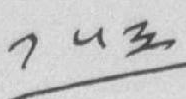༡༥༣
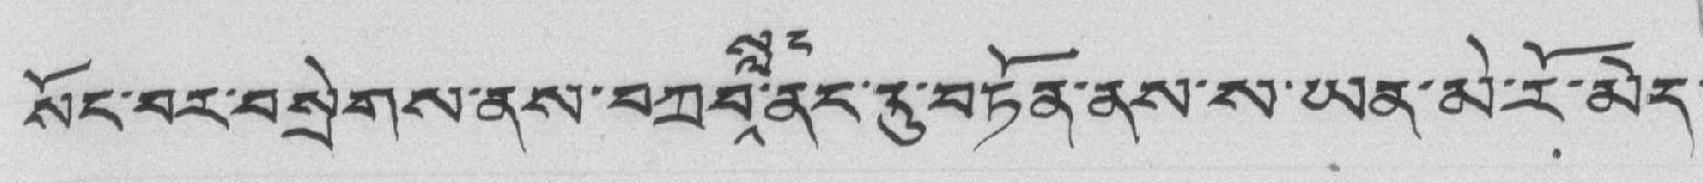སོང་བར་བསྲེགས་ནས་བཀབ་སླང་ནང་དུ་བཏོན་ནས་ས་ཡན་མེ་རོ་མེད་
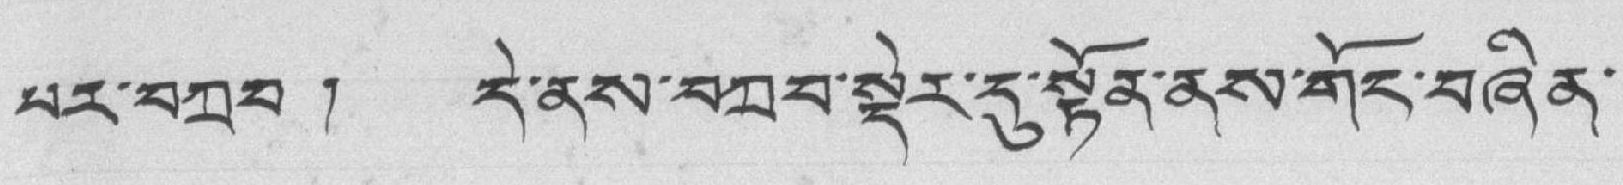པར་བཀྲབ ། དེ་ནས་བཀབ་སྡེར་དུ་སྟོན་ནས་གོང་བཞིན་
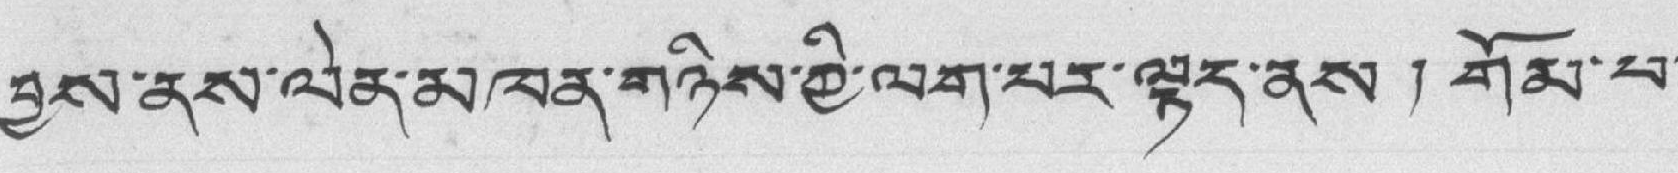བྱས་ནས་ལེན་མཁན་གཉིས་ཀྱི་ལག་པར་ལྟད་ནས ། གོམ་པ་
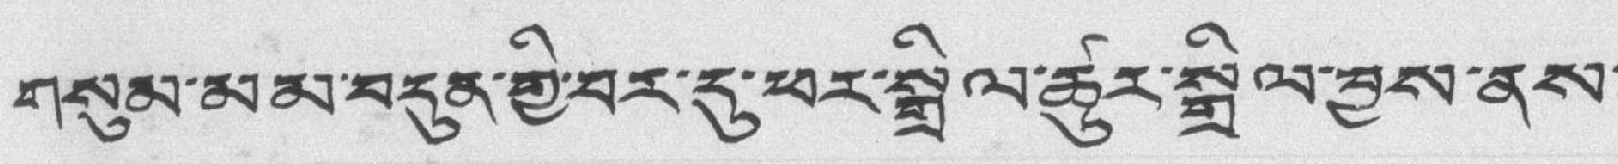གསུམ་མམ་བདུན་གྱི་བར་དུ་ཕར་སྒྲིལ་ཚུར་སྒྲིལ་བྱས་ནས་
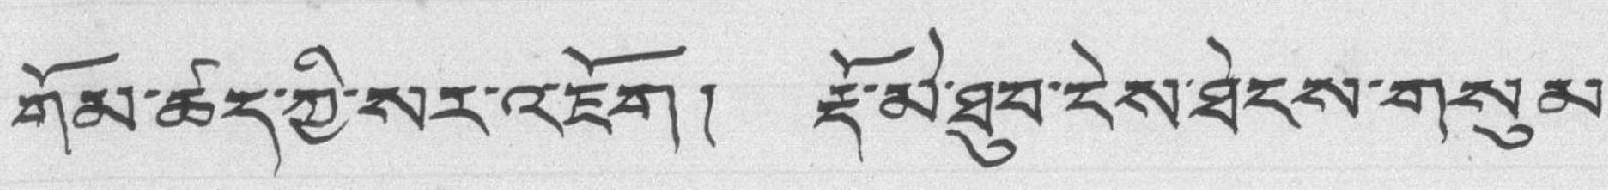གོམ་ཚད་ཀྱི་སར་འཇོག། རྡོ་མེ་ཐུབ་ངེས་ཐེངས་གསུམ་
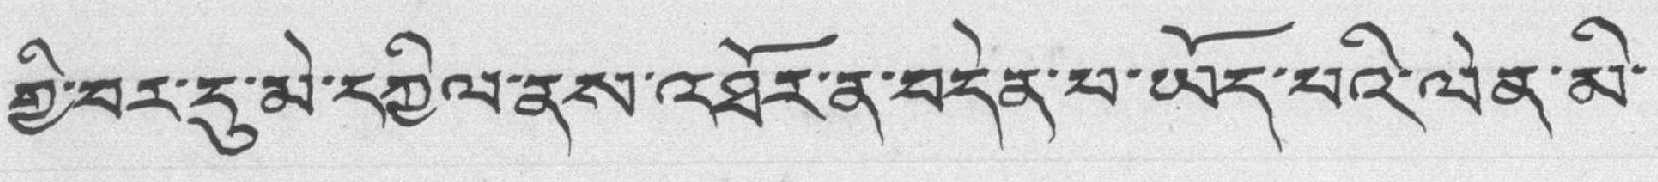གྱི་བར་དུ་མེ་དཀྱིལ་ནས་འཐོར་ན་བདེན་པ་ཡོད་པའི་ལེན་མི
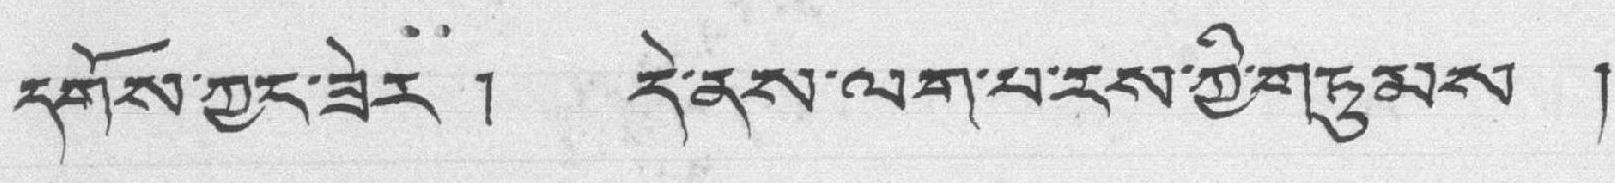དགོས་ཀྱང་ཟེར ། དེ་ནས་ལག་པ་རས་ཀྱི་གཏུམས །
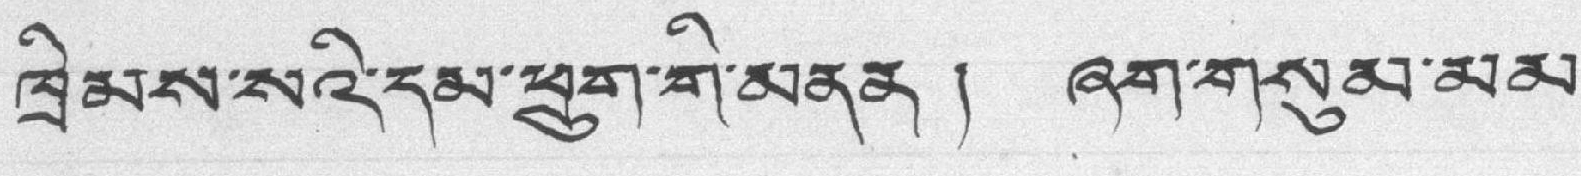ཁྲིམས་སའི་དམ་ཕྲུག་གི་མནན ། ཞག་གསུམ་མམ་
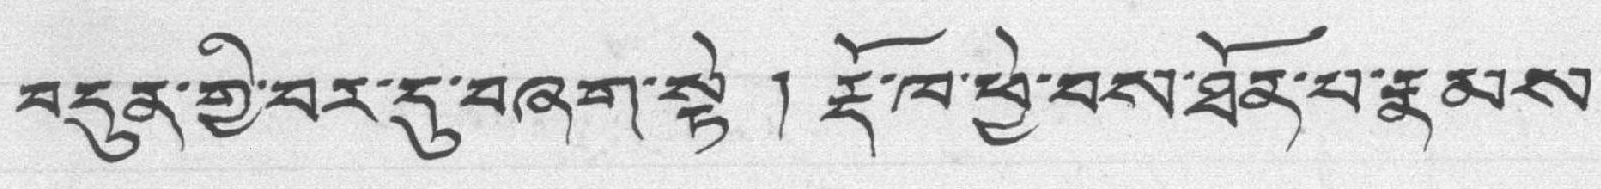བདུན་གྱི་བར་དུ་བཞག་སྟེ ། རྡོ་ཁ་ཕྱེ་བས་ཐོན་པ་རྣམས་
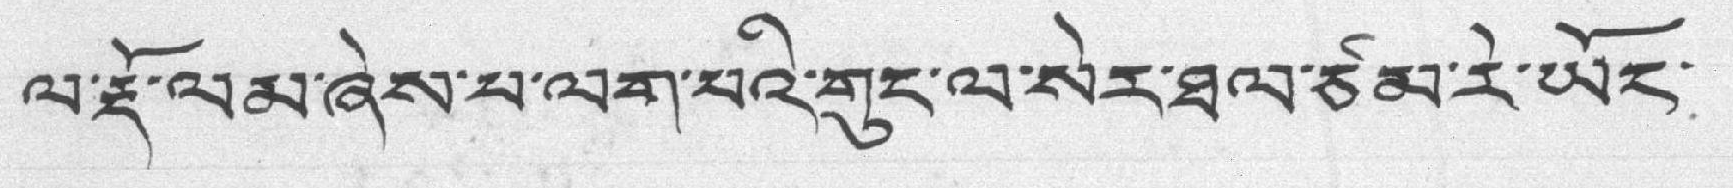ལ་རྡོ་ལམ་ཞེས་པ་ལག་པའི་གུང་ལ་སེར་ཐལ་ཙམ་རེ་ཡོང་
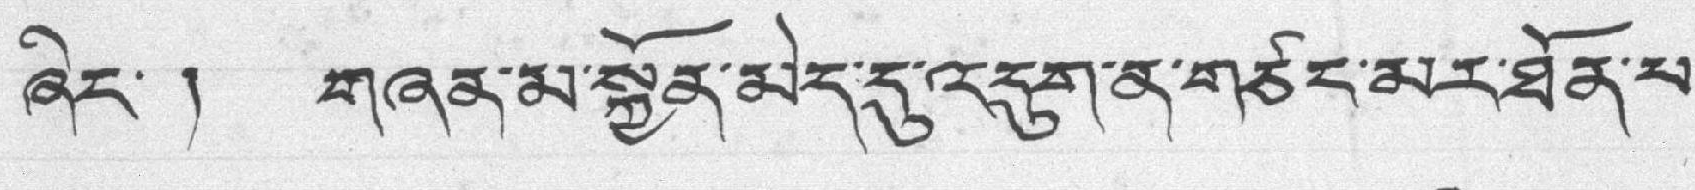ཞིང་ ། གཞན་མ་སྐྱོན་མེད་དུ་འདུག་ན་གཙང་མར་ཐོན་པ་
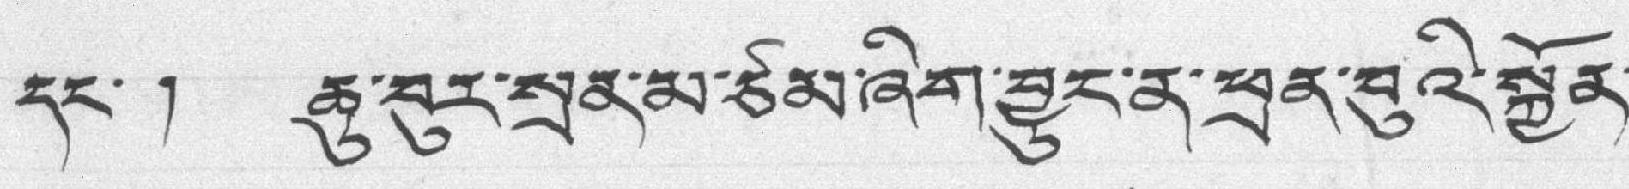དང་ ། ཆུ་བུར་སྲན་མ་ཙམ་ཞིག་བྱུང་ན་ཕྲན་བུའི་སྐྱོན་
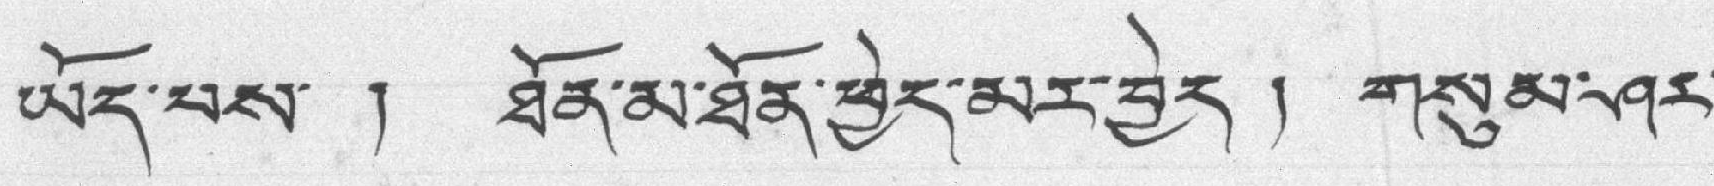ཡོད་པས་ ། ཐོན་མ་ཐོན་ཕྱེད་མར་བྱེད ། གསུམ་ཤར་
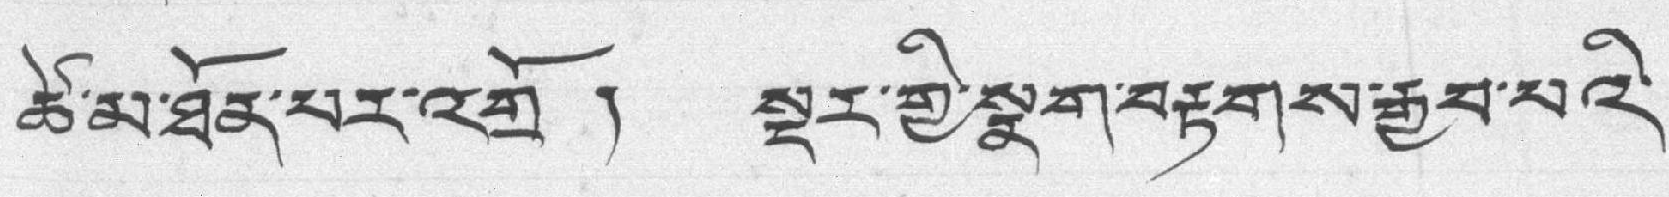ཚེ་མ་ཐོན་པར་འགྲོ ། སྔར་གྱི་སྣག་བརྟགས་རྒྱབ་པའི་
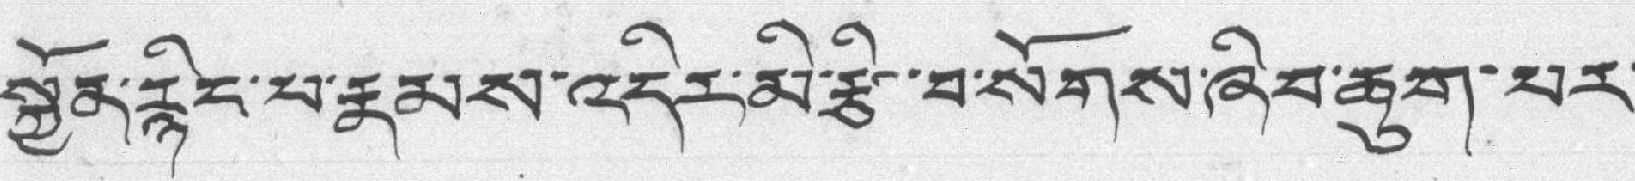སྐྱོན་རྙིང་པ་རྣམས་འདིར་མི་རྩི་བ་སོགས་ཞིབ་ཆུག་པར་
